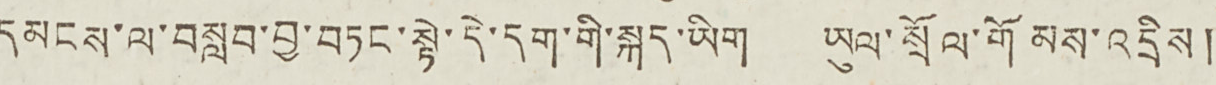དམངས་ལ་བསླབ་བྱ་བཏང་སྟེ་དེ་དག་གི་སྐད་ཡིག ཡུལ་སྲོལ་གོ མས་འདྲིས།
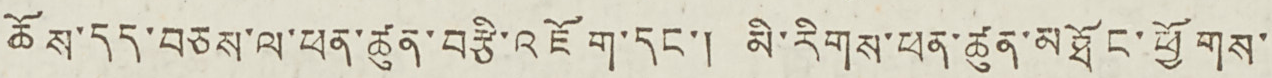ཆོས་དད་བཅས་ལ་ཕན་ཚུན་བརྩི་འཇོག་དང་། མི་རིགས་ཕན་ཚུན་མཐོང་ཕྱོགས་
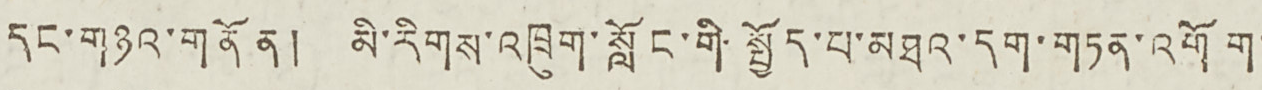དང་གཉའ་གནོན། མི་རིགས་འཁྲུག་སློང་གི་སྤྱོད་པ་མཐའ་དག་གཏན་འགོག་
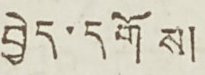བྱེད་དགོས།
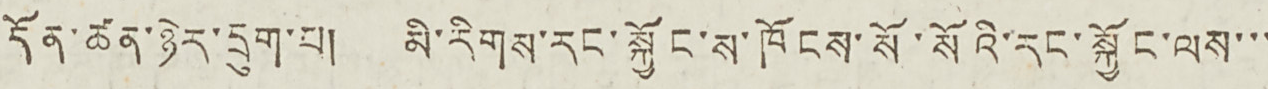དོན་ཚན་ཉེར་དྲུག་པ། མི་རིགས་རང་སྐྱོང་ས་ཁོངས་སོ་སོའི་རང་སྐྱོང་ལས་་་་
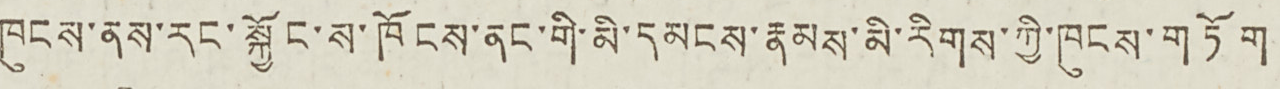ཁུངས་ནས་རང་སྐྱོང་ས་ཁོངས་ནང་གི་མི་དམངས་རྣམས་མི་རིགས་ཀྱི་ཁུངས་གཏོག
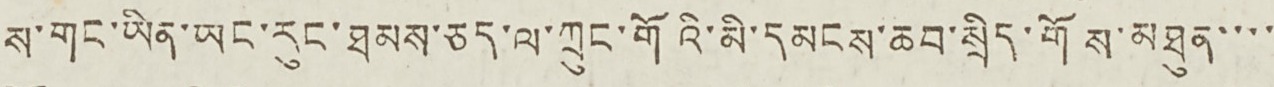ས་གང་ཡིན་ཡང་རུང་ཐམས་ཅད་ལ་ཀྲུང་གོའི་མི་དམངས་ཆབ་སྲིད་གོས་མཐུན་་་་
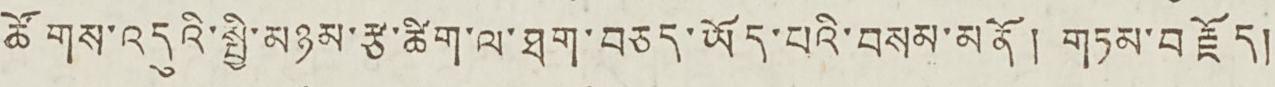ཚོགས་འདུའི་སྤྱི་མཉམ་རྩ་ཚིག་ལ་ཐག་བཅད་ཡོད་པའི་བསམ་མནོ། གཏམ་བརྗོད།
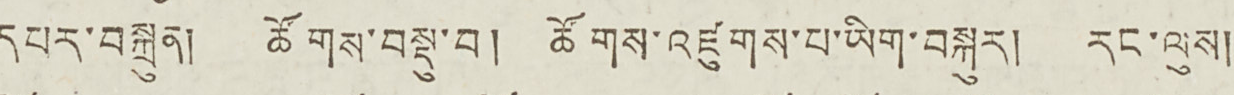དཔར་བསྐྲུན། ཚོགས་བསྡུ་བ། ཚོགས་འཛུགས་པ་ཡིག་བསྐུར། རང་ལུས།
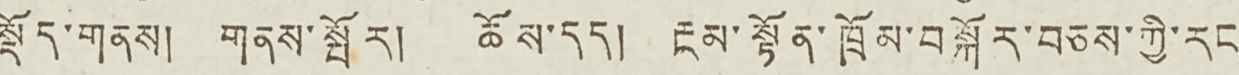སྡོད་གནས། གནས་སྤོར། ཆོས་དད། རྔམ་སྟོན་ཁྲོམ་བསྐོར་བཅས་ཀྱི་རང་
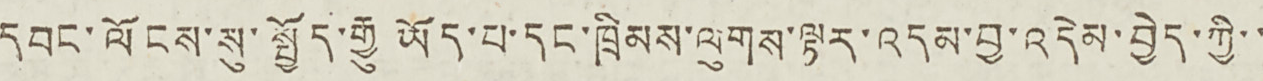དབང་ལོངས་སུ་སྤྱོད་རྒྱུ ཡོད་པ་དང་ཁྲིམས་ལུགས་ལྟར་འདམ་བྱ་འདེམ་བྱེད་ཀྱི་་
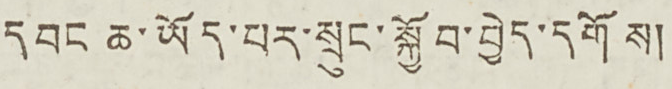དབང ཆ་ཡོད་པར་སྲུང་སྐྱོབ་བྱེད་དགོས།
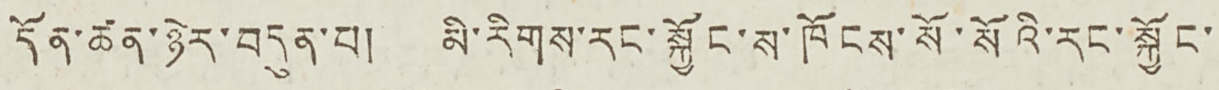དོན་ཚན་ཉེར་བདུན་པ། མི་རིགས་རང་སྐྱོང་ས་ཁོངས་སོ་སོའི་རང་སྐྱོང་
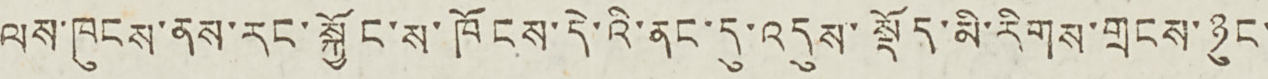ལས་ཁུངས་ནས་རང་སྐྱོང་ས་ཁོངས་དེ་འི་ནང་དུ་འདུས་སྡོད་མི་རིགས་གྲངས་ཉུང་
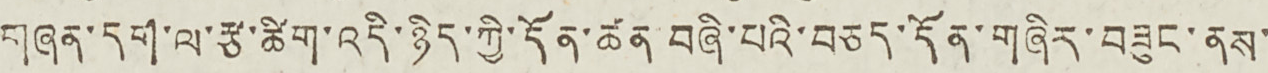གཞན་དག་ལ་རྩ་ཚིག་འདི་ཉིད་ཀྱི་དོན་ཚན་བཞི་པའི་བཅད་དོན་གཞིར་བཟུང་ནས་
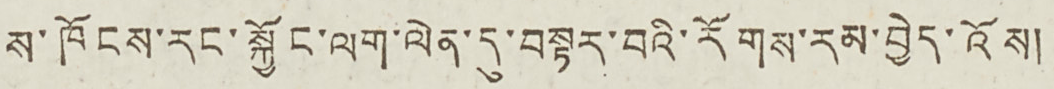ས་ཁོངས་རང་སྐྱོང་ལག་ལེན་དུ་བསྟར་བའི་རོགས་རམ་བྱེད་འོས།
